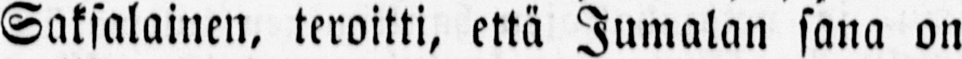Saksalainen, teroitti, että Jumalan sana on
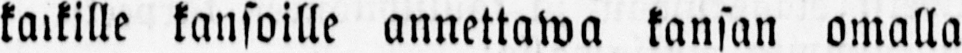kaikille kansoille annettawa kansan omalla
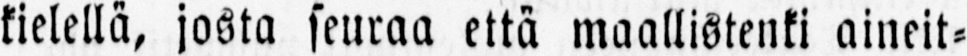kielellä, josta seuraa että maallistenki aineit-
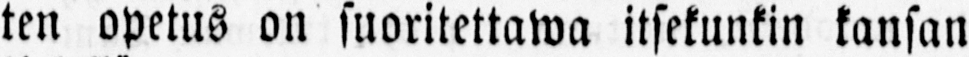ten opetus on suoritettawa itsekunkin kansan
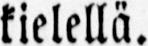kielellä.
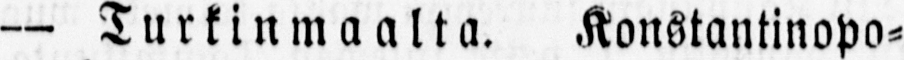— Turkinmaalta. Konstantinopo-
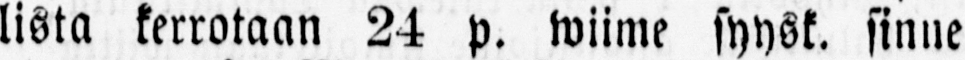lista kerrotaan 24 p. wiime syysk. sinne
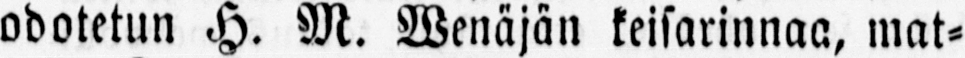odotetun H. M. Wenäjän keisarinnaa, mat-
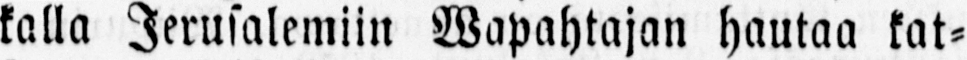kalla Jerusalemiin Wapahtajan hautaa kat-
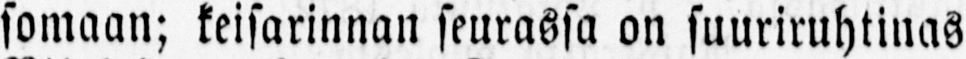somaan; keisarinnan seurassa on suuriruhtinas
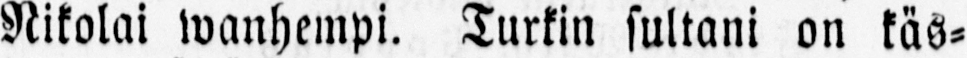Nikolai wanhempi. Turkin sultani on käs-
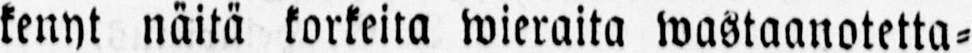kenyt näitä korkeita wieraita wastaanotetta-
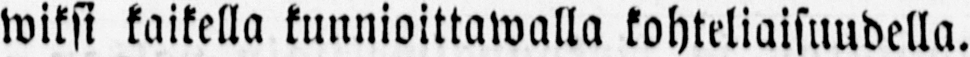wiksi kaikella kunnioittawalla kohteliaisuudella.
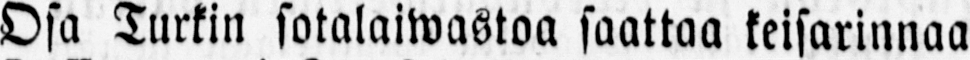Osa Turkin sotalaiwastoa saattaa keisarinnaa
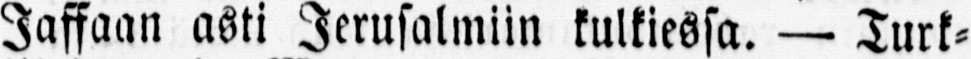Jaffaan asti Jerusalmiin kulkiessa. — Turk-
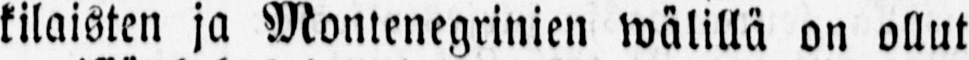kilaisten ja Montenegrinien wälillä on ollut
